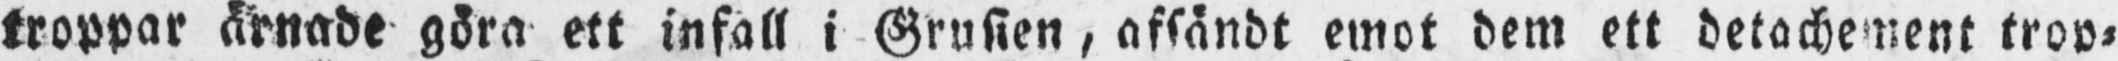troppar ärnade göra ett infall i Grusien, afsändt emot dem ett detachement trop-
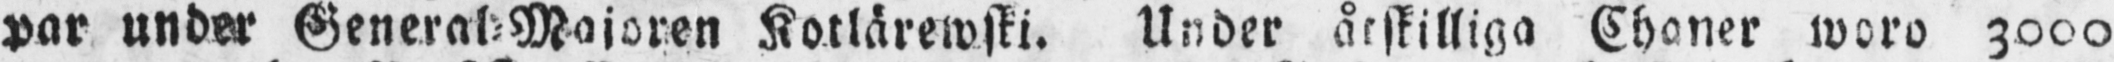par under General-Majoren Kotlärewski. Under åtskilliga Chaner woro 3000
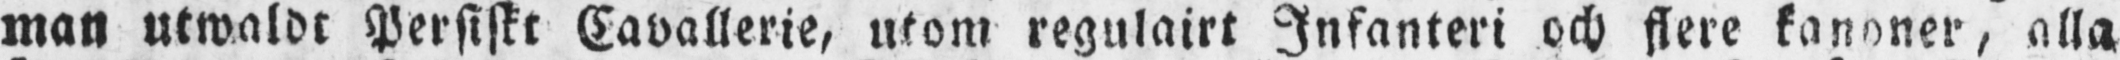man utwaldt Persiskt Cavallerie, utom regulairt Infanteri och flere kanoner, alla
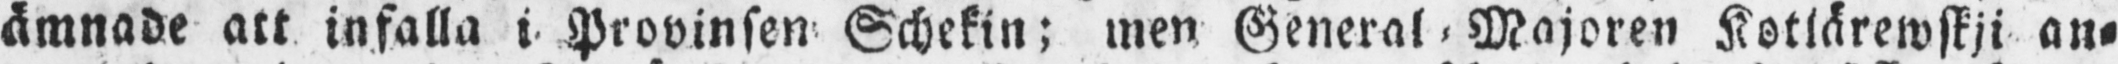ämnade att infalla i Provinsen Schekin; men General-Majoren Kotlärewskji an-
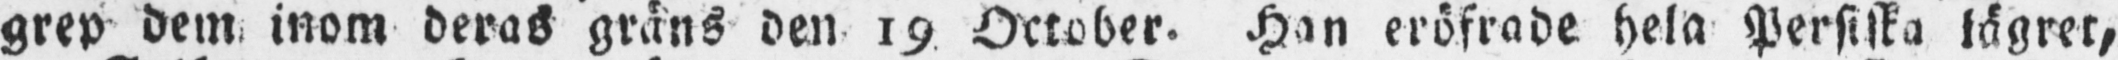grep dem inom deras gräns den 19 October. Han eröfrade hela Persiska lägrer,
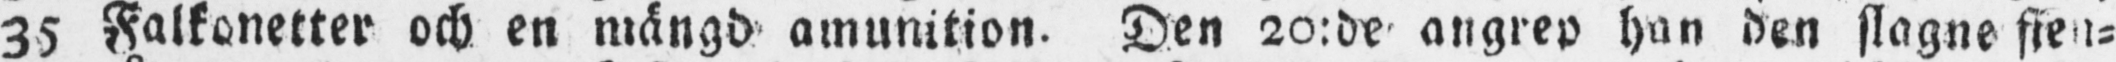35 Falkonetter och en mängd amunition. Den 20:de angrep han den slagne fien-
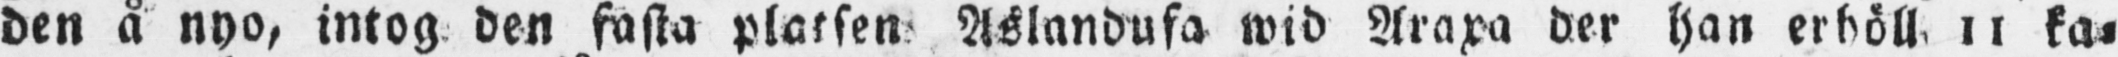den å nyo, intog den fasta platsen Aslandusa wid Araxa der han erhöll 11 ka-
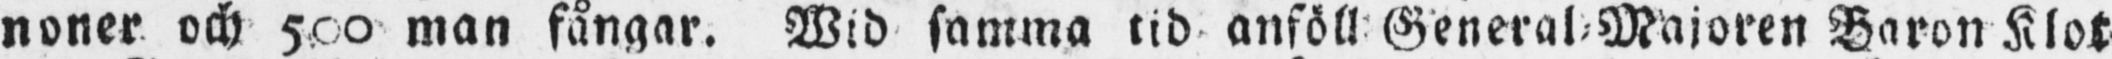noner och 500 man fångar. Wid samma tid anföll General-Majoren Baron Klot
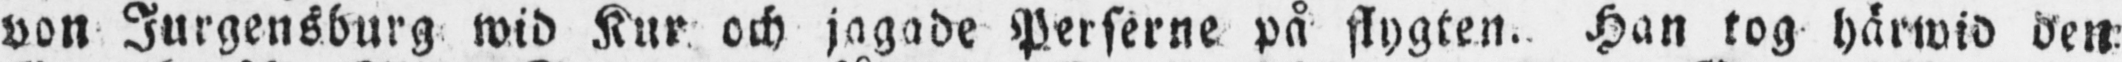von Jurgensburg wid Kur och jagade Perserne på flygten. Han tog härwid den
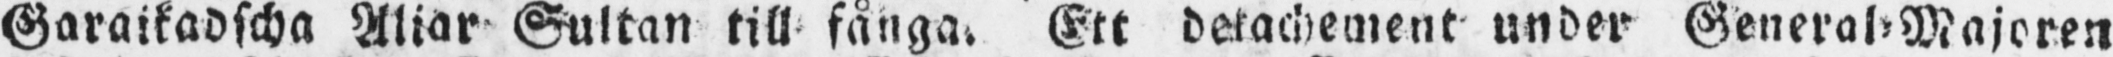Garaikadscha Aliar Sultan till fånga. Ett detachement under General-Majoren
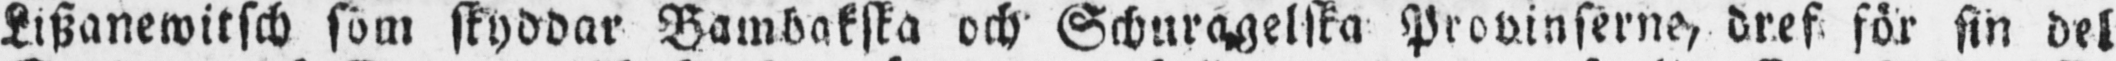Liszanewitsch som skyddar Bambakska och Schuragelska Provinserne, dref för sin del
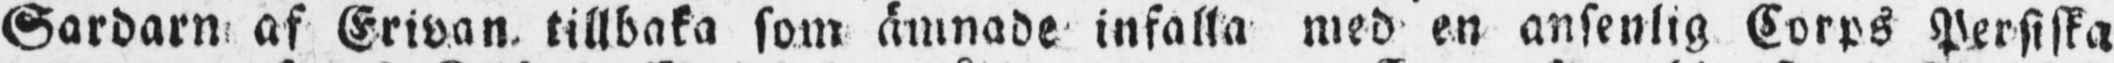Gardarn af Erivan. tillbaka som ämnade infalla med en ansenlig Corps Persiska
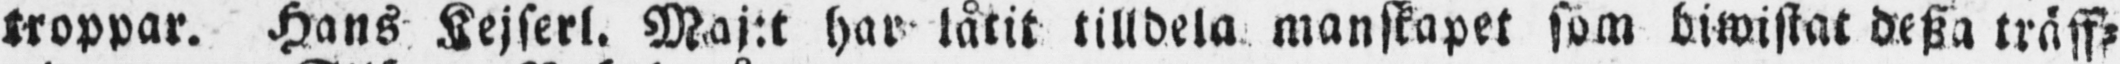troppar. Hans Kejserl. Maj:t har låtit tilldela manskapet som biwistat desza träff-
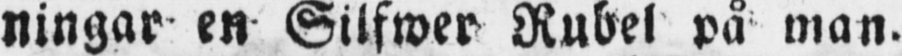ningar en Silfwer Rubel på man.
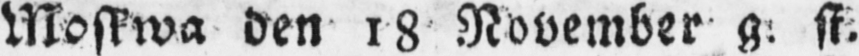Moskwa den 18 November g. st.
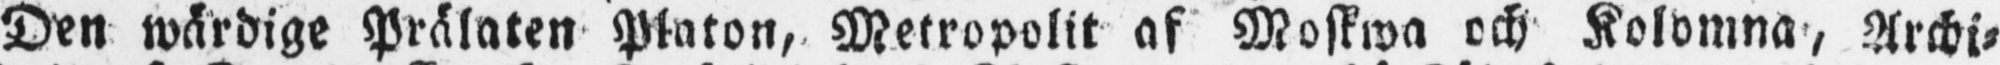Den wärdige Prälaten Platon, Metropolit af Moskwa och Kolomna, Archi-
